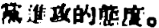黨進攻的態度。
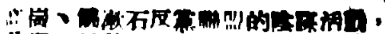高崗、饒漱石反黨聯盟的陰謀活動，
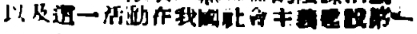以及這一活動在我國社會主義建設第一
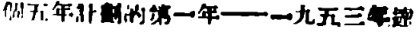個五年計劃的第一年——一九五三年達
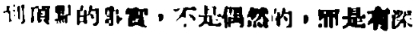到頂點的事實，不是偶然的，而是有深
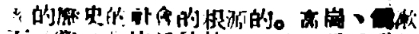刻的歷史的社會的根源的。高崗、饒漱
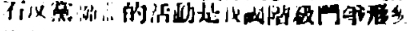石反黨聯盟的活動是我國階級鬥爭形勢
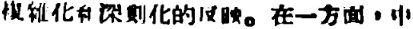複雜化和深刻化的反映。在一方面，中
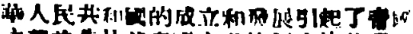華人民共和國的成立和發展引起了帝國
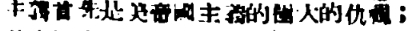主義首先是美帝國主義的極大的仇視；
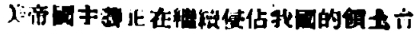美帝國主義正在繼續侵佔我國的領土台
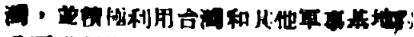灣，並積極利用台灣和其他軍事基地對
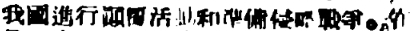我國進行顛覆活動和準備侵略戰爭。在
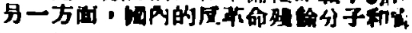另一方面，國內的反革命殘餘分子和資
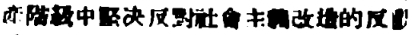產階級中堅決反對社會主義改造的反動
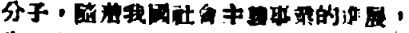分子，隨着我國社會主義事業的進展，
